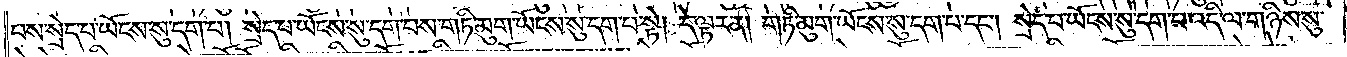པས་སྲེད་པ་ཡོངས་སུ་དག་པ། སྲེད་པ་ཡོངས་སུ་དག་པས་གཏི་མུག་ཡོངས་སུ་དག་པ་སྟེ། དེ་ལྟར་ན། གཏི་མུག་ཡོངས་སུ་དག་པ་དང༌། སྲེད་པ་ཡོངས་སུ་དག་པ་འདི་ལ་གཉིས་སུ་
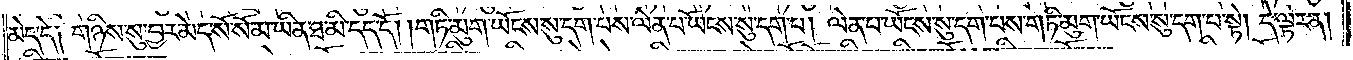མེད་དེ༑ གཉིས་སུ་བྱར་མེད་སོ་སོ་མ་ཡིན་ཐ་མི་དད་དོ། །གཏི་མུག་ཡོངས་སུ་དག་པས་ལེན་པ་ཡོངས་སུ་དག་པ། ལེན་པ་ཡོངས་སུ་དག་པས་གཏི་མུག་ཡོངས་སུ་དག་པ་སྟེ། དེ་ལྟར་ན།
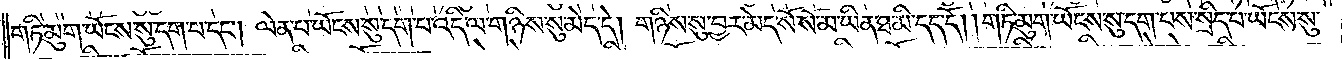གཏི་མུག་ཡོངས་སུ་དག་པ་དང༌། ལེན་པ་ཡོངས་སུ་དག་པ་འདི་ལ་གཉིས་སུ་མེད་དེ། གཉིས་སུ་བྱར་མེད་སོ་སོ་མ་ཡིན་ཐ་མི་དད་དོ། །གཏི་མུག་ཡོངས་སུ་དག་པས་སྲིད་པ་ཡོངས་སུ་
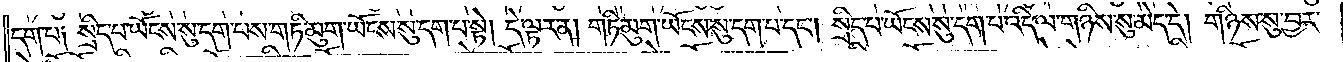དག་པ༑ སྲིད་པ་ཡོངས་སུ་དག་པས་གཏི་མུག་ཡོངས་སུ་དག་པ་སྟེ། དེ་ལྟར་ན། གཏི་མུག་ཡོངས་སུ་དག་པ་དང༌། སྲིད་པ་ཡོངས་སུ་དག་པ་འདི་ལ་གཉིས་སུ་མེད་དེ། གཉིས་སུ་བྱར་
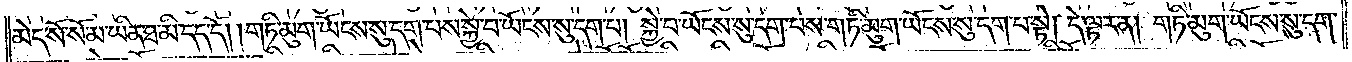མེད་སོ་སོ་མ་ཡིན་ཐ་མི་དད་དོ། །གཏི་མུག་ཡོངས་སུ་དག་པས་སྐྱེ་བ་ཡོངས་སུ་དག་པ། སྐྱེ་བ་ཡོངས་སུ་དག་པས་གཏི་མུག་ཡོངས་སུ་དག་པ་སྟེ། དེ་ལྟར་ན། གཏི་མུག་ཡོངས་སུ་དག་
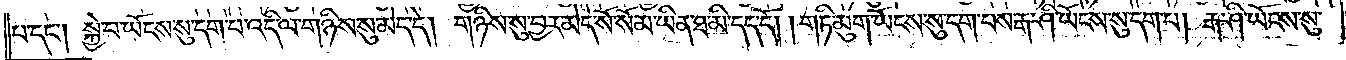པ་དང༌། སྐྱེ་བ་ཡོངས་སུ་དག་པ་འདི་ལ་གཉིས་སུ་མེད་དེ། གཉིས་སུ་བྱར་མེད་སོ་སོ་མ་ཡིན་ཐ་མི་དད་དོ། །གཏི་མུག་ཡོངས་སུ་དག་པས་རྒ་ཤི་ཡོངས་སུ་དག་པ། རྒ་ཤི་ཡོངས་སུ་
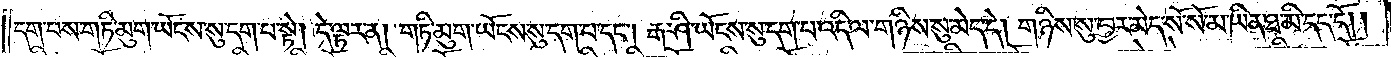དག་པས་གཏི་མུག་ཡོངས་སུ་དག་པ་སྟེ། དེ་ལྟར་ན། གཏི་མུག་ཡོངས་སུ་དག་པ་དང༌། རྒ་ཤི་ཡོངས་སུ་དག་པ་འདི་ལ་གཉིས་སུ་མེད་དེ། གཉིས་སུ་བྱར་མེད་སོ་སོ་མ་ཡིན་ཐ་མི་དད་དོ། །
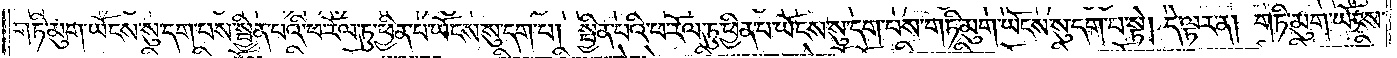གཏི་མུག་ཡོངས་སུ་དག་པས་སྦྱིན་པའི་ཕ་རོལ་ཏུ་ཕྱིན་པ་ཡོངས་སུ་དག་པ། སྦྱིན་པའི་ཕ་རོལ་ཏུ་ཕྱིན་པ་ཡོངས་སུ་དག་པས་གཏི་མུག་ཡོངས་སུ་དག་པ་སྟེ། དེ་ལྟར་ན། གཏི་མུག་ཡོངས་
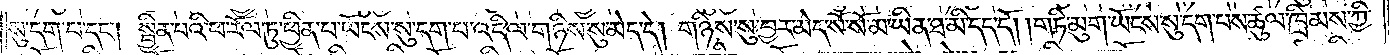སུ་དག་པ་དང༌། སྦྱིན་པའི་ཕ་རོལ་ཏུ་ཕྱིན་པ་ཡོངས་སུ་དག་པ་འདི་ལ་གཉིས་སུ་མེད་དེ། གཉིས་སུ་བྱར་མེད་སོ་སོ་མ་ཡིན་ཐ་མི་དད་དོ། །གཏི་མུག་ཡོངས་སུ་དག་པས་ཚུལ་ཁྲིམས་ཀྱི་
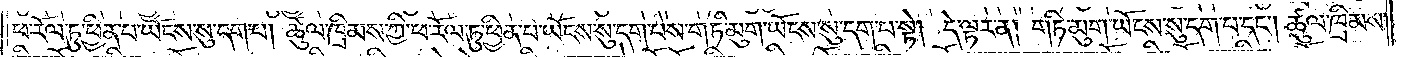ཕ་རོལ་ཏུ་ཕྱིན་པ་ཡོངས་སུ་དག་པ། ཚུལ་ཁྲིམས་ཀྱི་ཕ་རོལ་ཏུ་ཕྱིན་པ་ཡོངས་སུ་དག་པས་གཏི་མུག་ཡོངས་སུ་དག་པ་སྟེ། དེ་ལྟར་ན། གཏི་མུག་ཡོངས་སུ་དག་པ་དང༌། ཚུལ་ཁྲིམས་
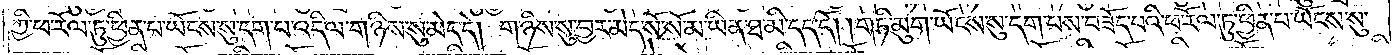ཀྱི་ཕ་རོལ་ཏུ་ཕྱིན་པ་ཡོངས་སུ་དག་པ་འདི་ལ་གཉིས་སུ་མེད་དེ། གཉིས་སུ་བྱར་མེད་སོ་སོ་མ་ཡིན་ཐ་མི་དད་དོ། །གཏི་མུག་ཡོངས་སུ་དག་པས་བཟོད་པའི་ཕ་རོལ་ཏུ་ཕྱིན་པ་ཡོངས་སུ་
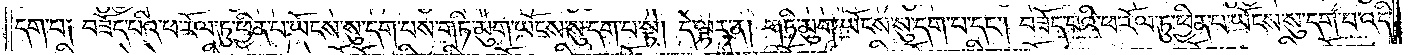དག་པ༑ བཟོད་པའི་ཕ་རོལ་ཏུ་ཕྱིན་པ་ཡོངས་སུ་དག་པས་གཏི་མུག་ཡོངས་སུ་དག་པ་སྟེ། དེ་ལྟར་ན། གཏི་མུག་ཡོངས་སུ་དག་པ་དང༌། བཟོད་པའི་ཕ་རོལ་ཏུ་ཕྱིན་པ་ཡོངས་སུ་དག་པ་འདི་
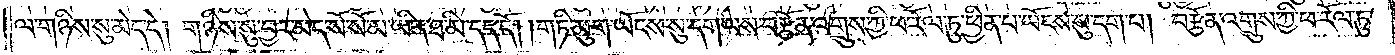ལ་གཉིས་སུ་མེད་དེ། གཉིས་སུ་བྱར་མེད་སོ་སོ་མ་ཡིན་ཐ་མི་དད་དོ། །གཏི་མུག་ཡོངས་སུ་དག་པས་བརྩོན་འགྲུས་ཀྱི་ཕ་རོལ་ཏུ་ཕྱིན་པ་ཡོངས་སུ་དག་པ། བརྩོན་འགྲུས་ཀྱི་ཕ་རོལ་ཏུ་
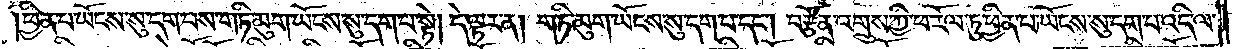ཕྱིན་པ་ཡོངས་སུ་དག་པས་གཏི་མུག་ཡོངས་སུ་དག་པ་སྟེ། དེ་ལྟར་ན། གཏི་མུག་ཡོངས་སུ་དག་པ་དང༌། བརྩོན་འགྲུས་ཀྱི་ཕ་རོལ་ཏུ་ཕྱིན་པ་ཡོངས་སུ་དག་པ་འདི་ལ་
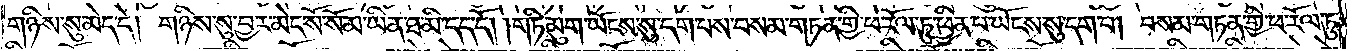གཉིས་སུ་མེད་དེ། གཉིས་སུ་བྱར་མེད་སོ་སོ་མ་ཡིན་ཐ་མི་དད་དོ། །གཏི་མུག་ཡོངས་སུ་དག་པས་བསམ་གཏན་གྱི་ཕ་རོལ་ཏུ་ཕྱིན་པ་ཡོངས་སུ་དག་པ། བསམ་གཏན་གྱི་ཕ་རོལ་ཏུ་
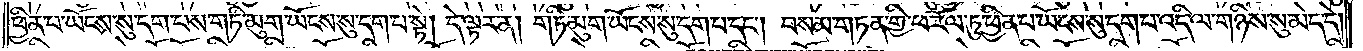ཕྱིན་པ་ཡོངས་སུ་དག་པས་གཏི་མུག་ཡོངས་སུ་དག་པ་སྟེ། དེ་ལྟར་ན། གཏི་མུག་ཡོངས་སུ་དག་པ་དང༌། བསམ་གཏན་གྱི་ཕ་རོལ་ཏུ་ཕྱིན་པ་ཡོངས་སུ་དག་པ་འདི་ལ་གཉིས་སུ་མེད་དེ།
